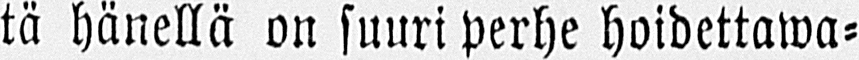tä hänellä on suuri perhe hoidettawa-
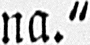na."
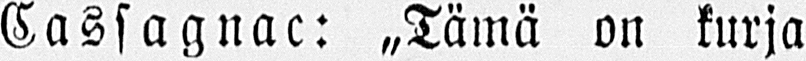Cassagnac: „Tämä on kurja
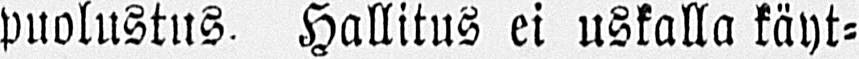puolustus. Hallitus ei uskalla käyt-
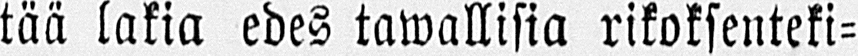tää lakia edes tawallisia rikoksenteki-
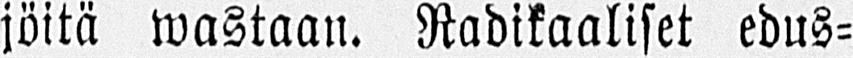jöitä wastaan. Radikaaliset edus-
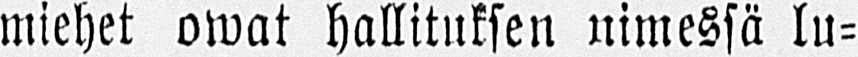miehet owat hallituksen nimessä lu-
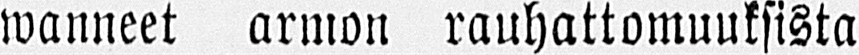wanneet armon rauhattomuuksista
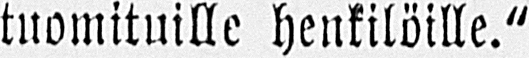tuomituille henkilöille."
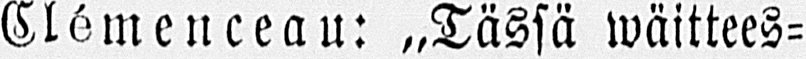Elémenceau: „Tässä wäittees-
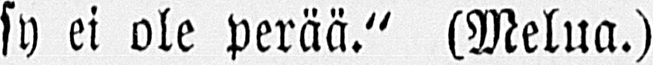sy ei ole perää." (Melua.)
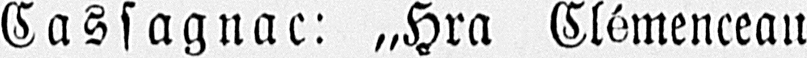Cassagnac: „Hra Elémencean
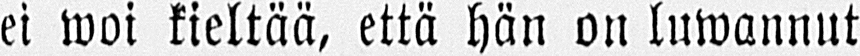ei woi kieltää, että hän on luwannut
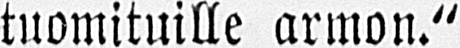tuomituille armon."
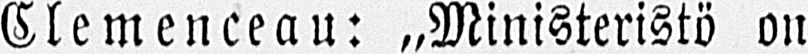Clemenceau: „Ministeristö on
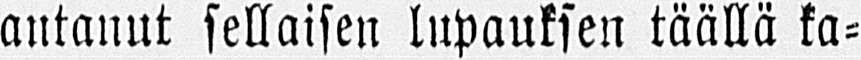antanut sellaisen lupauksen täällä ka-
